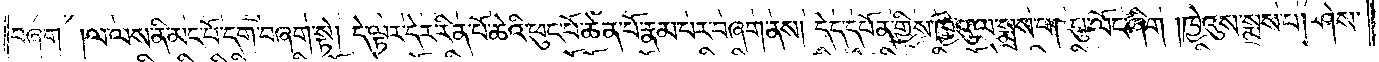བཞག །ལ་ལས་ནི་མང་པོ་དག་བཞག་སྟེ། དེ་ལྟར་དེར་རིན་པོ་ཆེའི་ཕུང་པོ་ཆེན་པོ་རྣམ་པར་བཞག་ནས། དེད་དཔོན་གྱིས་ཁྱེའུ་ལ་སྨྲས་པ། བུ་ལོང་ཞིག །ཁྱེའུས་སྨྲས་པ། ཤེས་
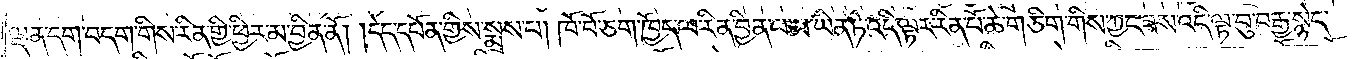ལྡན་དག་བདག་གིས་རིན་གྱི་ཕྱིར་མ་བྱིན་ནོ། །དེད་དཔོན་གྱིས་སྨྲས་པ། ཁོ་བོ་ཅག་ཁྱོད་ལ་རིན་བྱིན་པ་མ་ཡིན་ཏེ་འདི་ལྟར་རིན་པོ་ཆེ་གཅིག་གིས་ཀྱང་ཟས་འདི་ལྟ་བུ་བརྒྱ་སྙེད་
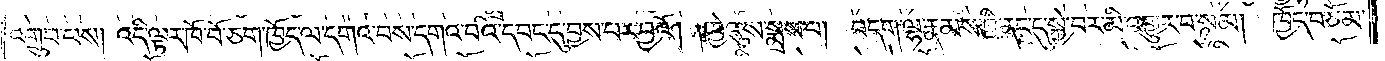འགྲུབ་པས། འདི་ལྟར་ཁོ་བོ་ཅག་ཁྱོད་ལ་དགའ་བས་དགའ་བའི་དབང་དུ་བྱས་བར་བྱའོ། །ཁྱེའུས་སྨྲས་པ། བདག་ལྷ་རྣམས་ཀྱི་ནང་དུ་སྐྱེ་བར་མི་འགྱུར་བ་སྙམ། ཁྱོད་བཅོམ་
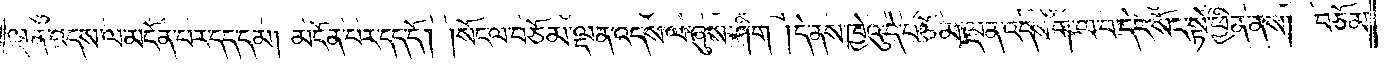ལྡན་འདས་ལ་མངོན་པར་དད་དམ། མངོན་པར་དད་དོ། །སོང་ལ་བཅོམ་ལྡན་འདས་ལ་ཞུས་ཤིག །དེ་ནས་ཁྱེའུ་དེ་བཅོམ་ལྡན་འདས་ག་ལ་བ་དེར་སོང་སྟེ་ཕྱིན་ནས། བཅོམ་
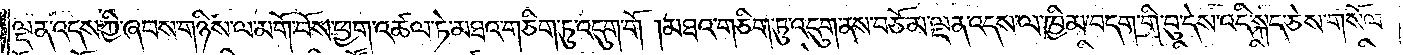ལྡན་འདས་ཀྱི་ཞབས་གཉིས་ལ་མགོ་བོས་ཕྱག་འཚལ་ཏེ་མཐའ་གཅིག་ཏུ་འདུག་གོ །མཐའ་གཅིག་ཏུ་འདུག་ནས་བཅོམ་ལྡན་འདས་ལ་ཁྱིམ་བདག་གི་བུ་དེས་འདི་སྐད་ཅེས་གསོལ་
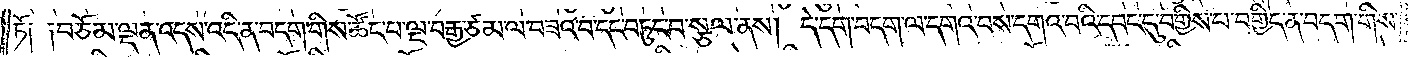ཏོ༑ ༑བཅོམ་ལྡན་འདས་འདི་ན་བདག་གིས་ཚོང་པ་ལྔ་བརྒྱ་ཙམ་ལ་བཟའ་བ་དང་བཏུང་བ་སྩལ་ནས། དེ་དག་བདག་ལ་དགའ་བས་དགའ་བའི་དབང་དུ་བགྱིས་པ་བགྱིད་ན་བདག་གིས་
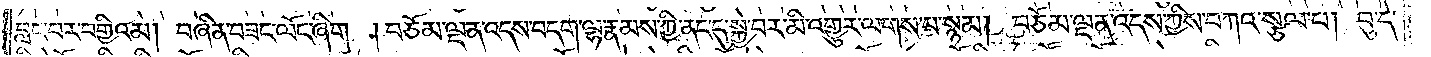བླང་བར་བགྱིའམ། བཞིན་བཟང་ལོང་ཞིག །བཅོམ་ལྡན་འདས་བདག་ལྷ་རྣམས་ཀྱི་ནང་དུ་སྐྱེ་བར་མི་འགྱུར་ལགས་པ་སྙམ། བཅོམ་ལྡན་འདས་ཀྱིས་བཀའ་སྩལ་པ། བུ་དེ་
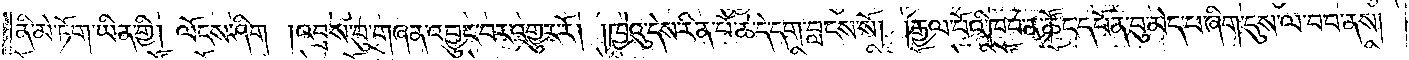ནི་མེ་ཏོག་ཡིན་གྱི། ལོངས་ཤིག །འབྲས་བུ་གཞན་འབྱུང་བར་འགྱུར་རོ། །ཁྱེའུ་དེས་རིན་པོ་ཆེ་དེ་དག་བླངས་སོ། །རྒྱལ་པོའི་ཁབ་ན་ཚོང་དཔོན་བུ་མེད་པ་ཞིག་དུས་ལ་བབ་ནས།
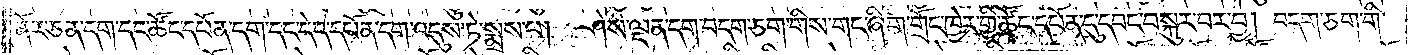ནོར་ཅན་དག་དང་ཚོང་དཔོན་དག་དང་དེད་དཔོན་དག་འདུས་ཏེ་སྨྲས་པ། ཤེས་ལྡན་དག་བདག་ཅག་གིས་གང་ཞིག་གྲོང་ཁྱེར་གྱི་ཚོང་དཔོན་དུ་དབང་བསྐུར་བར་བྱ། བདག་ཅག་གི་
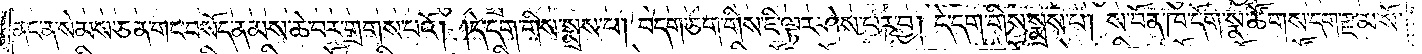ནང་ན་སེམས་ཅན་གང་བསོད་ནམས་ཆེ་བར་གྲགས་པའོ། །དེ་དག་གིས་སྨྲས་པ། བདག་ཅག་གིས་ཇི་ལྟར་ཤེས་པར་བྱ། དེ་དག་གིས་སྨྲས་པ། ས་བོན་ཁ་དོག་སྣ་ཚོགས་དག་རྫ་མ་སོ་
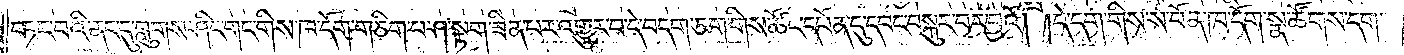བཏང་བའི་ནང་དུ་བླུགས་ཤིང་གང་གིས་ཁ་དོག་གཅིག་པ་ཤ་སྟག་ཟིན་པར་འགྱུར་བ་དེ་བདག་ཅག་གིས་ཚོང་དཔོན་དུ་དབང་བསྐུར་བར་བྱའོ། །དེ་དག་གིས་ས་བོན་ཁ་དོག་སྣ་ཚོགས་དག་
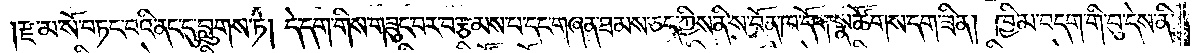རྫ་མ་སོ་བཏང་བའི་ནང་དུ་བླུགས་ཏེ། དེ་དག་གིས་གཟུང་བར་བརྩམས་པ་དང་གཞན་ཐམས་ཅད་ཀྱིས་ནི་ས་བོན་ཁ་དོག་སྣ་ཚོགས་དག་ཟིན། ཁྱིམ་བདག་གི་བུ་དེས་ནི་
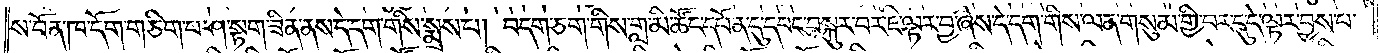ས་བོན་ཁ་དོག་གཅིག་པ་ཤ་སྟག་ཟིན་ནས་དེ་དག་གིས་སྨྲས་པ། བདག་ཅག་གིས་གླ་མི་ཚོང་དཔོན་དུ་དབང་བསྐུར་བར་ཇི་ལྟར་བྱ་ཞེས་དེ་དག་གིས་ལན་གསུམ་གྱི་བར་དུ་དེ་ལྟར་བྱས་པ་
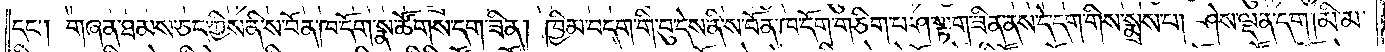དང༌། གཞན་ཐམས་ཅད་ཀྱིས་ནི་ས་བོན་ཁ་དོག་སྣ་ཚོགས་དག་ཟིན། ཁྱིམ་བདག་གི་བུ་དེས་ནི་ས་བོན་ཁ་དོག་གཅིག་པ་ཤ་སྟག་ཟིན་ནས་དེ་དག་གིས་སྨྲས་པ། ཤེས་ལྡན་དག །མི་མ་
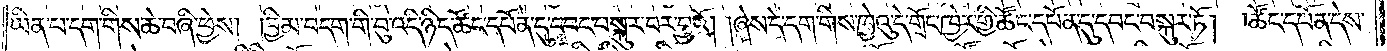ཡིན་པ་དག་གིས་ཆེ་བཞི་ཕྱེས། ཁྱིམ་བདག་གི་བུ་འདི་ཉིད་ཚོང་དཔོན་དུ་དབང་བསྐུར་བར་བྱའོ། །ཞེས་དེ་དག་གིས་ཁྱེའུ་དེ་གྲོང་ཁྱེར་གྱི་ཚོང་དཔོན་དུ་དབང་བསྐུར་ཏོ། །ཚོང་དཔོན་དེས་
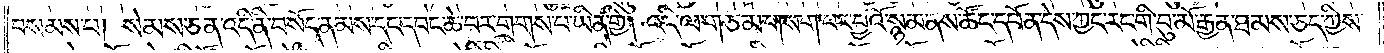བསམས་པ། སེམས་ཅན་འདི་ནི་བསོད་ནམས་དང་དབང་ཆེ་བར་གྲགས་པ་ཡིན་གྱི། འདི་ལ་གཅམ་གསག་པར་བྱའོ་སྙམ་ནས་ཚོང་དཔོན་དེས་ཀྱང་རང་གི་བུ་མོ་རྒྱན་ཐམས་ཅད་ཀྱིས་
